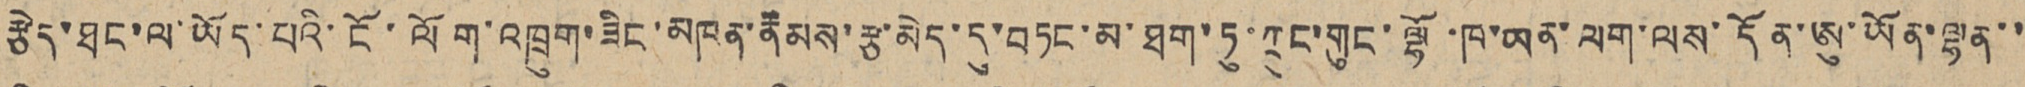རྩེད་ཐང་ལ་ཡོད་པའི་ངོ་ལོག་འཁྲུག་ཟིང་མཁན་རྣམས་རྩ་མེད་དུ་བཏང་མ་ཐག་ཏུ་ཀྲུང་གུང་ལྷོ་ཁ་ཡན་ལག་ལས་དོན་ཨུ་ཡོན་ལྷན་་
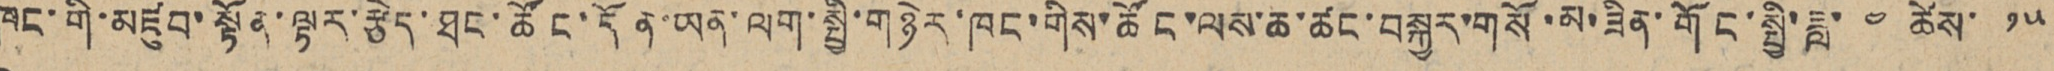ཁང་གི་མཛུབ་སྟོན་ལྟར་རྩེད་ཐང་ཚོང་དོན་ཡན་ལག་སྤྱི་གཉེར་ཁང་གིས་ཚོང་ལས་ཆ་ཚང་བསྐྱར་གསོ་མ་ཟིན་གོང་སྤྱི་ཟླ་ ༤ ཚེས་ ༡༥
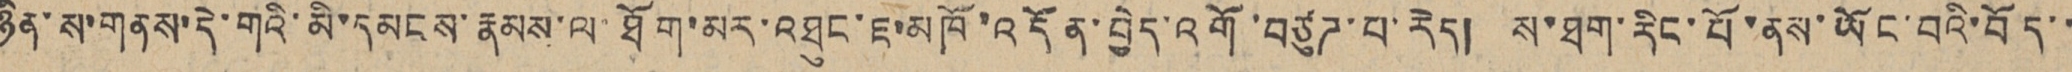ཉིན་ས་གནས་དེ་གའི་མི་དམངས་རྣམས་ལ་ཐོག་མར་འཐུང་ཇ་མཁོ་འདོན་བྱེད་འགོ་བཙུཊ་པ་རེད། ས་ཐག་རིང་པོ་ནས་ཡོང་བའི་བོད་་
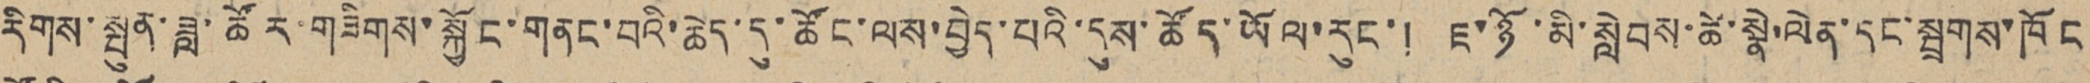རིགས་སྤུན་ཟླ་ཚོར་གཟིགས་སྐྱོང་གནང་བའི་ཆེད་དུ་ཚོང་ལས་བྱེད་པའི་དུས་ཚོད་ཡོལ་རུང་། ཇ་ཉོ་མི་སླེབས་ཚེ་སྣེ་ལེན་དང་སྦྲགས་ཁོང
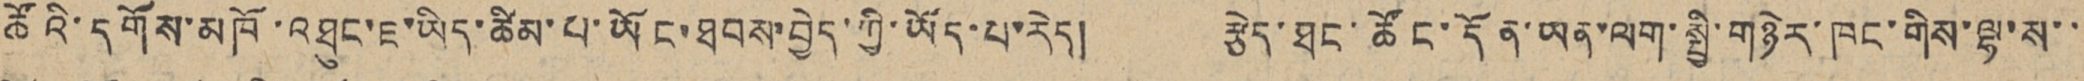ཚོའི་དགོས་མཁོ་འཐུང་ཇ་ཡིད་ཚིམ་པ་ཡོང་ཐབས་བྱེད་ཀྱི་ཡོད་པ་རེད། རྩེད་ཐང་ཚོང་དོན་ཡན་ལག་སྤྱི་གཉེར་ཁང་གིས་ལྷ་ས་་
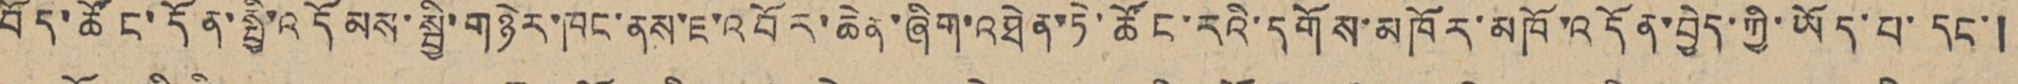བོད་ཚོང་དོན་སྤྱི་འདོམས་སྤྱི་གཉེར་ཁང་ནས་ཇ་འབོར་ཆེན་ཞིག་འཐེན་ཏེ་ཚོང་རའི་དགོས་མཁོར་མཁོ་འདོན་བྱེད་ཀྱི་ཡོད་པ་དང་།
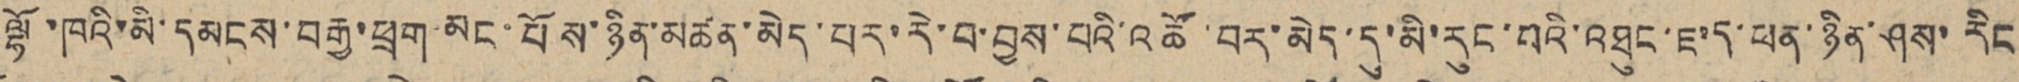ལྷོ་ཁའི་མི་དམངས་བརྒྱ་ཕྲག་མང་པོས་ཉིན་མཚན་མེད་པར་རེ་བ་བྱས་པའི་འཚོ་བར་མེད་དུ་མི་རུང་བའི་འཐུང་ཇ་ད་ཕན་ཉིན་ཤས་རིང
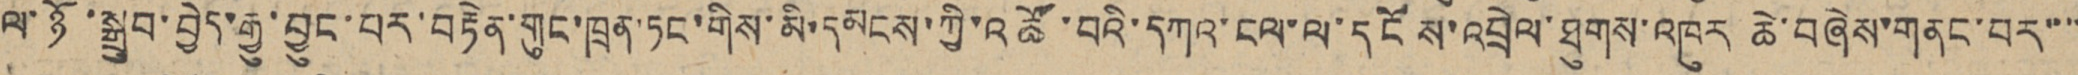ལ་ཉོ་སྒྲུབ་བྱེད་རྒྱུ་བྱུང་བར་བརྟེན་གུང་ཁྲན་ཏང་གིས་མི་དམངས་ཀྱི་འཚོ་བའི་དཀའ་ངལ་ལ་དངོས་འབྲེལ་ཐུགས་འཁུར ཆེ་གཞེས་གནང་བར་་་་་
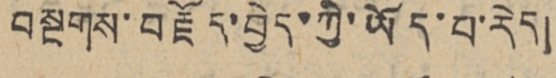བསྔགས་བརྗོད་བྱེད་ཀྱི་ཡོད་པ་རེད།
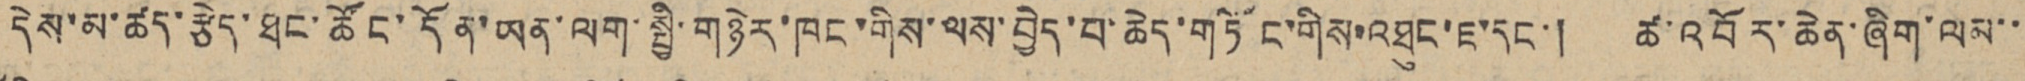དེས་མ་ཚད་རྩེད་ཐང་ཚོང་དོན་ཡན་ལག་སྤྱི་གཉེར་ཁང་གིས་ལས་བྱེད་པ་ཆེད་གཏོང་གིས་འཐུང་ཇ་དང་། ཚ་འབོར་ཆེན་ཞིག་ལམ་་
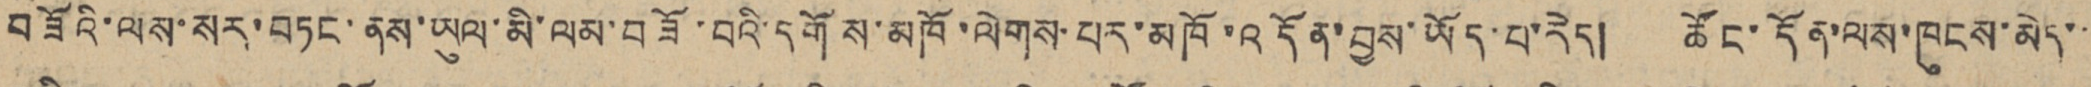བཟོའི་ལས་སར་བཏང་ནས་ཡུལ་མི་ལམ་བཟོ་བའི་དགོས་མཁོ་ལེགས་པར་མཁོ་འདོན་བྱས་ཡོད་པ་རེད། ཚོང་དོན་ལས་ཁུངས་མེད་་
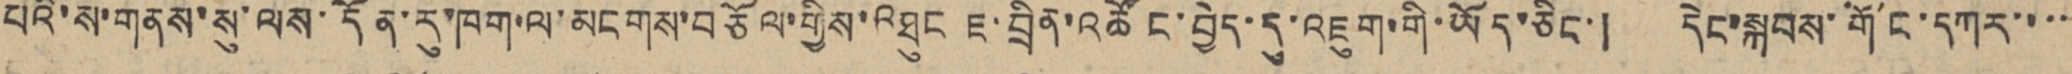པའི་ས་གནས་སུ་ལས་དོན་རུ་ཁག་ལ་མངགས་བཅོལ་གྱིས་འཐུང ཇ་བྲིན་འཚོང་བྱེད་དུ་འཇུག་གི་ཡོད་ཅིང་། དེང་སྐབས་གོང་དཀར་་་་་
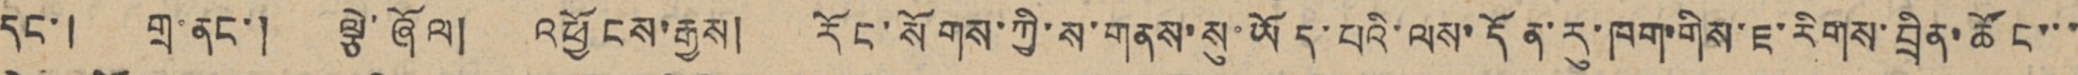དང་། གྲ་ནང་། ལྕེ་ཞོལ། འཕྱོངས་རྒྱས། རོང་སོགས་ཀྱི་ས་གནས་སུ་ཡོད་པའི་ལས་དོན་རུ་ཁག་གིས་ཇ་རིགས་བྲིན་ཚོང་་་
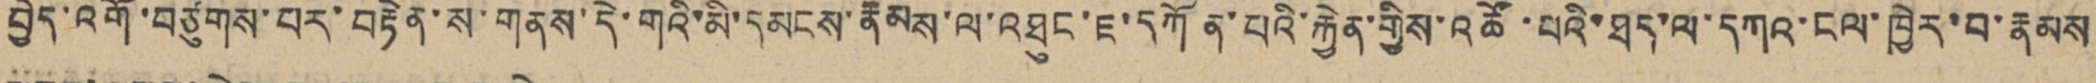བྱེད་འགོ་བཙུགས་པར་བརྟེན་ས་གནས་དེ་གའི་མི་དམངས་རྣམས་ལ་འཐུང་ཇ་དཀོན་པའི་རྐྱེན་གྱིས་འཚོ་པའི་ཐད་ལ་དཀའ་ངལ་ཁྱེར་བ་རྣམས
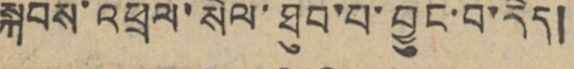སྐབས་འཕྲལ་སེལ་ཐུབ་པ་བྱུང་བ་རེད།
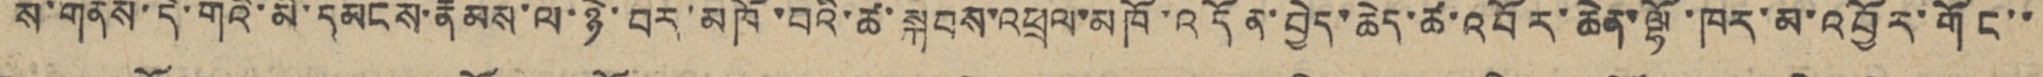ས་གནས་དེ་གའི་མི་དམངས་རྣམས་ལ་ཉེ་བར་མཁོ་བའི་ཚོ་སྐབས་འཕྲལ་མཁོ་འདོན་བྱེད་ཆེད་ཚ་འབོད་ཆེན་ལྷོ་ཁར་མ་འབྱོར་གོང་་
